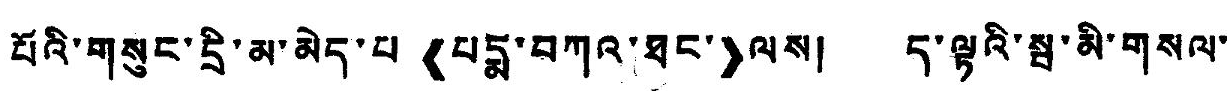པོའི་གསུང་དྲི་མ་མེད་པ་《པདམ་བཀའ་ཐང》་ལས། ད་ལྟའི་སྦ་མི་གསལ་
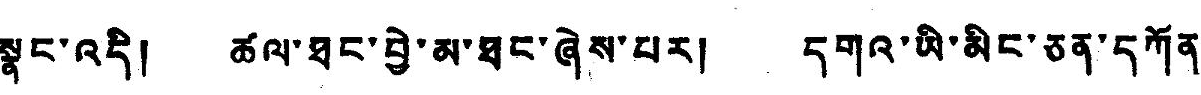སྣང་འདི། ཚལ་ཐང་བྱེ་མ་ཐང་ཞེས་པར། དགའ་ཡི་མིང་ཅན་དཀོན་
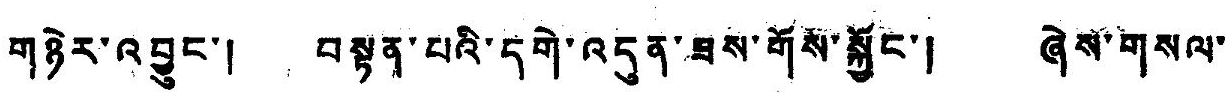གཉེར་འབྱུང་། བསྟན་པའི་དགེ་འདུན་ཟས་གོས་སྐྱོང་། ཞེས་གསལ་
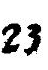23
